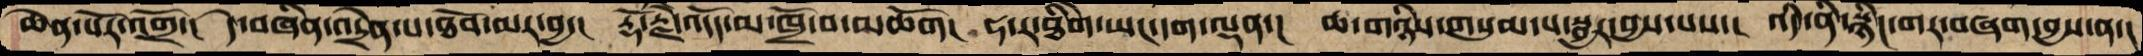ཆེན་པོར་འགྲོ་།  དེ་བཞིན་འདྲེན་པ་ཐོབ་མར་བྱ་།  རྡོ་རྗེ་འདོད་མ་ཁྲོ་བ་མཆོག།  ཧ་ར་ཐིགེ་ཡང་དག་ལྡན་།  ཆ་གཉིས་གསུམ་པ་སྦྱར་བྱས་པས་།  འདི་ནི་སྙིང་གར་བཞག་བྱས་ན་།
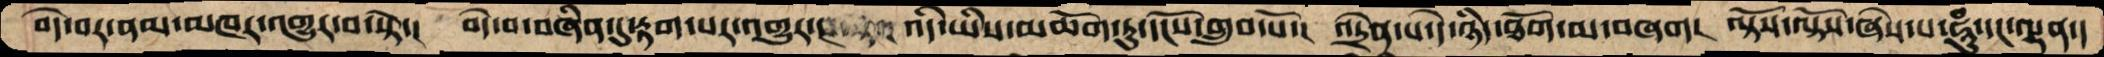བེད་བར་ནམ་མཁར་འགྱུར་བ་སྟེ་། བདེ་བ་བཞིན་དུ་རྟག་པར་འགྱུར་། འདི་ཡིས་མཆོག་ཏུ་དངོས་གྲུབ་པོ་། འདྲེན་པ་དེ་ཉིད་ཐོག་མ་བཞག། ལྟོས་ལྟོས་ཞེས་པ་ཧཱུཾ་དང་ལྡན་།
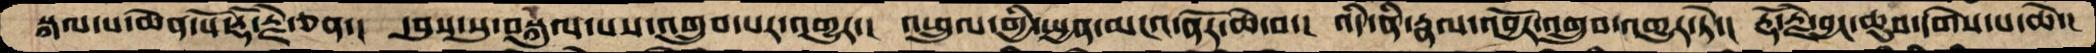སྐལ་པ་ཆེན་པོ་རྡོ་རྗེ་ཅན་།  དབུས་སུ་བསྐུལ་པས་འགྲུབ་པར་འགྱུར་།  འཕྲུལ་གྱི་སྤྱན་མངའ་ནོར་ཆེ་བ་།  འདི་ནི་རྣལ་འབྱོར་འགྲུབ་འགྱུར་ཏེ་།  རྡོ་རྗེ་བྱང་ཆུབ་དགོས་པ་ཆེ་།
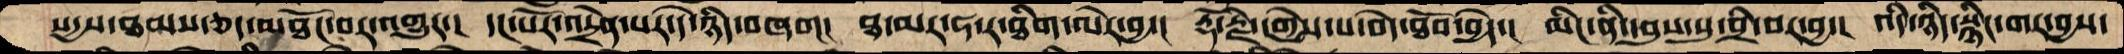སདྱས་ཐམས་ཅད་མཐོང་བར་འགྱུར་།  དང་པོར་འདྲེན་པར་དེ་ཉིད་བཞག།  ཐ་མར་ཧ་ར་ཐིག་ལེར་བྱ་།  རྡོ་རྗེ་དགྱེས་པ་བདེ་ཐོབ་བྱེད་།  མིང་ནི་དབུས་སུ་བྲི་བར་བྱ་།  འདི་ཉིད་སྙིང་གར་བྱས་
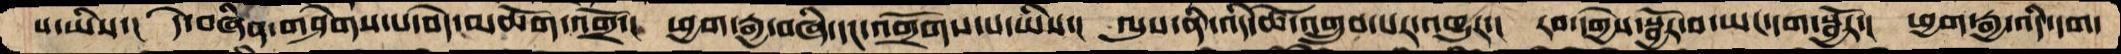པ་ཡིས་།  དེ་བཞིན་གཤེགས་པ་བདེ་མཆོག་འགྲོ་།  ཕྱག་རྒྱ་བཞི་དང་འགྲོགས་པ་ཡིས་།  ལུས་ནི་འདི་ཚེ་འགྲུབ་པར་འགྱུར་།  རབ་དགྱེས་སྦྱོར་བ་ཡང་དག་སྦྱོར་།  ཕྱག་རྒྱ་འདི་དག་
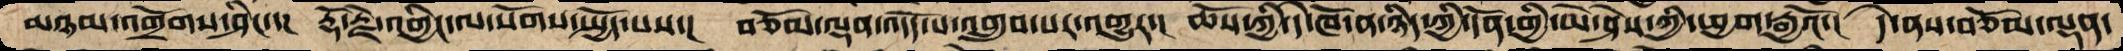མཉམ་འགྲོགས་ཤིང་་།  རྡོ་རྗེ་འགྱིང་ལ་སོགས་སྤྱོད་པས་།  བཅོམ་ལྡན་འདོད་པ་འགྲུབ་པར་འགྱུར་།  ཆོས་ཀྱི་དེ་ཁོ་ན་ཉིད་ཀྱི་དོན་གྱི་ཡེ་ཤེས་ཀྱི་ཕྱག་རྒྱའོ་།  དེ་ནས་བཅོམ་ལྡན་
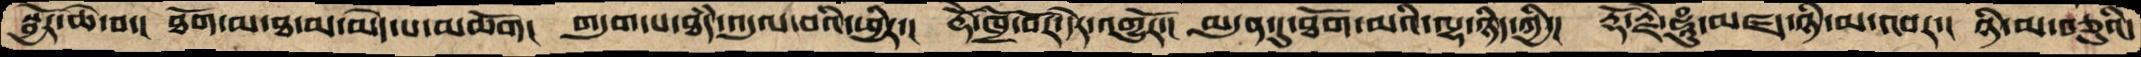སྦྱོར་ཆེ་བ་།  ཐོག་མ་ཐ་མ་མེད་པ་མཆོག།  གདུག་པ་ཐཾད་འདུལ་བའི་ཕྱིར་།  རྡོེ་ཁྲོ་བོར་དེར་འགྱུརོ་། མདུན་དུ་ཐོག་མའི་ལྷ་ཉིད་ཀྱི་།  རྡོ་རྗེ་ཧཱུཾ་མཛད་ཉི་མ་འབར་།  ཉི་མ་བཅུའི་
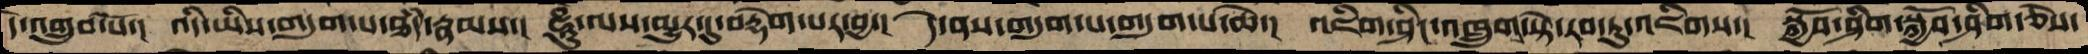དེ་འགྲུབ་པོ་།  འདི་ཡིས་གདུག་པ་ཐདཾ་རྣམས་།  ཧཱུཾ་ལས་མྱུར་དུ་བརྡེག་པར་བྱ་།  དེ་ནས་གདུག་པ་གདུག་པ་ཆེ་།  འཇིག་ཤིང་འཁྲུག་སྟེ་རབ་དུ་འཇིགས་།  སྐྱོབ་ཤིག་སྐྱོབ་ཤིག་ཅེས་
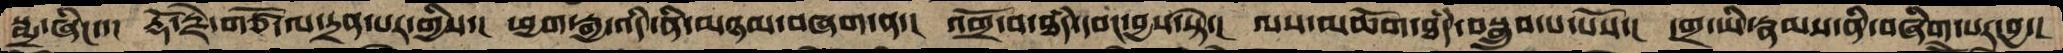སྨྲ་ཞིང་་།  རྡོ་རྗེ་གཙོ་ལ་དྲན་པར་གྱིས་།  ཕྱག་རྒྱ་འདི་ནི་མཉམ་བཞག་ན་།  འགྲོ་བ་ཐདཾ་དབང་བྱས་སྟེ་།  ལས་མཆོག་ཐདཾ་བསྒྲུབ་པ་པོས་།  དགྲ་ཡི་རྣམས་ནི་བཞིག་པར་བྱ་།
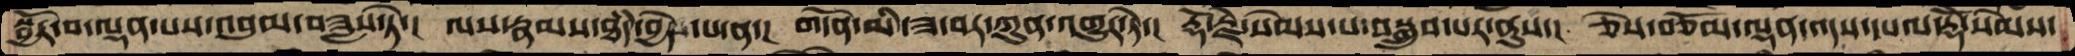སྦྱོར་བ་ལྡན་པས་འབུམ་བཟླས་ཏེ་།  ལས་རྣམས་ཐདཾ་བྱེད་པ་ན་།  གདོན་མི་ཟ་བར་ཀུན་འགྱུར་ཏེ་།  རྡོ་རྗེ་སེམས་པ་བསྒྲུབ་པར་ནུས་།  ཅེས་བཅོམ་ལྡན་འདས་དཔལ་རྡོེ་སེམས་
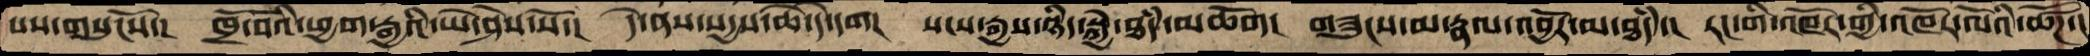པས་གསུངསོ་།  ཁྲོ་བོའི་ཕྱག་རྒྱའི་ཡེ་ཤེས་སོ་།  དེ་ནས་སངས་རྒྱས་ཆེ་དེ་དག།  སངས་རྒྱས་ཉིད་སྐྱེ་ཐཾད་མཆོག།  གཟུངས་མ་རྣལ་འབྱོར་མ་ཐཾད་།  རང་གི་འཁོར་གྱི་འཁོར་ལོའི་ཚོཌ་།
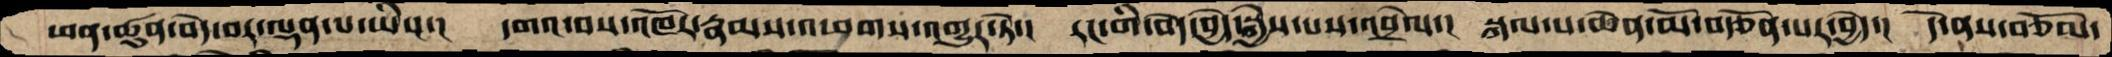ཕན་ཚུན་བདེ་བར་ལྡན་པ་ཡིས་།  དགའ་བས་འཁོར་རྣམས་འཕགས་འགྱུར་ཏེ་།  རང་གི་བདེ་བྱེད་སྐྱེས་པས་འབྲེལ་།  སྐལ་པ་ཆེན་མོ་བརྩོན་པར་བྱེད་།  དེ་ནས་བཅོམ་
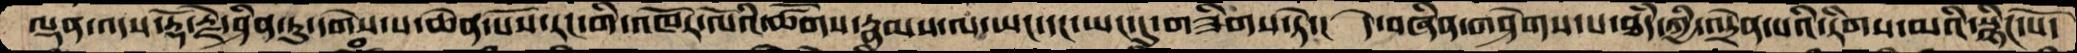ལྡན་འདས་རྡོ་རྗེ་ཤིན་ཏུ་དགེས་པ་ཆེན་པོས་རང་གི་འཁོར་ལོའི་ཚོགས་རྣམས་ལ་ཡང་དང་ཡང་དུ་གཟིགས་ཏེ་། དེ་བཞིན་གཤེགས་པ་ཐདཾ་ཀྱི་འདྲེན་པའི་རིགས་མའི་སྙིང་པོ་
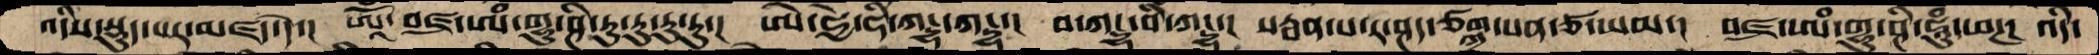འདིས་སྡུད་པར་མཛད་དེ་། ཨཱོཾ་བཛྲ་ཨཾ་གྷུ་ཤི་ཏུ་ཏུ་ཏུ་ཏུ་། ཨེ་ཧྱེ་ཧི་ཀངྡྷ་ཀངྡྷ་། བ་ཀངྡྷ་བི་ཀངྡྷ་། སརྦན་པ་ར་ཤད་ཙགྐ་པན་ཙ་ཡམ་། བཛྲ་ཨཾ་གྷུ་ཤྚི་ཧཱུཾ་ཕཊ། འདི་
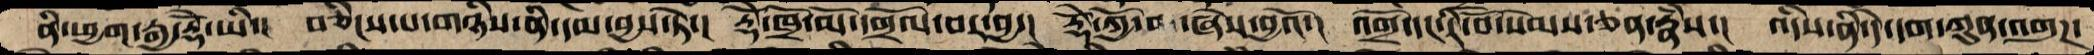ནི་ཕྱག་རྒྱ་རྡོེ་ཡི་། བཅིངས་པ་གཉིས་ནི་དམ་བྱས་ཏེ་། རྡོེ་ཁྲོ་མོ་དགྲོལ་བར་བྱ་། རྡོེ་ཀྱོ་མ་ཞེས་བྱའོ་། འགྲོ་དང་རི་བོ་སེམས་ཅན་རྣཾས་། འདིས་ནི་དེ་དག་ཀུན་འགུཌ་
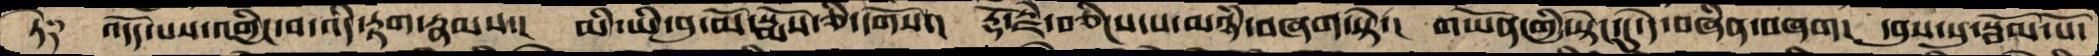ཏེ༑  འདོད་པས་འགྱིང་བ་འདི་རྟག་རྣམས་།  མི་ཡི་བུ་མོ་སྨོས་ཅི་དགོས་།  རྡོ་རྗེ་བཅིངས་པ་མཉཾ་བཞག་སྟེ་།  གཡོན་གྱི་སྟེང་དུ་དེ་བཞིན་བཞག།  དབུས་སུ་སྦོམ་པོ་
